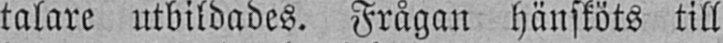talare utbildades. Frågan hänsköts till
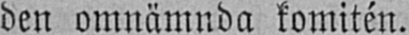den omnämnda komitén.
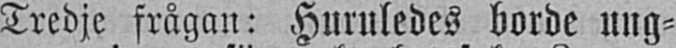Tredje frågan: Huruledes borde ung-
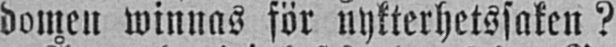domen winnas för nykterhetssaken?
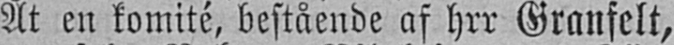Åt en komité, bestående af hrr Granfelt,
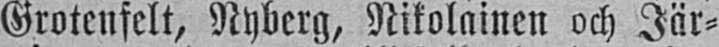Grotenfelt, Nyberg, Nikolainen och Jär-
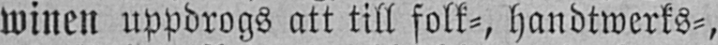winen uppdrogs att till folk-, handtwerks-,
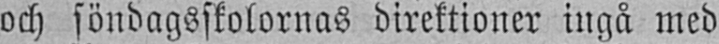och söndagsskolornas direktioner ingå med
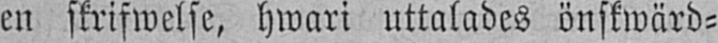en skrifwelse, hwari uttalades önskwärd-
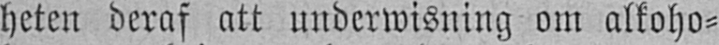heten deraf att underwisning om alkoho-
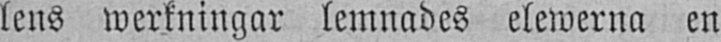lens werkningar lemnades elewerna en
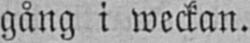gång i weckan.
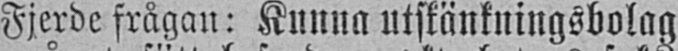Fjerde frågan: Kunna utskänkningsbolag
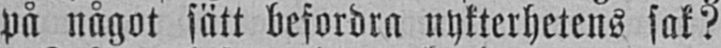på något sätt befordra nykterhetens sak?
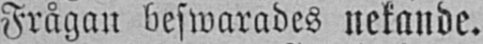Frågan beswarades nekande.
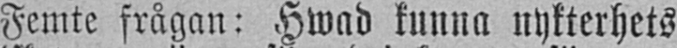Femte frågan: Hwad kunna nykterhets
